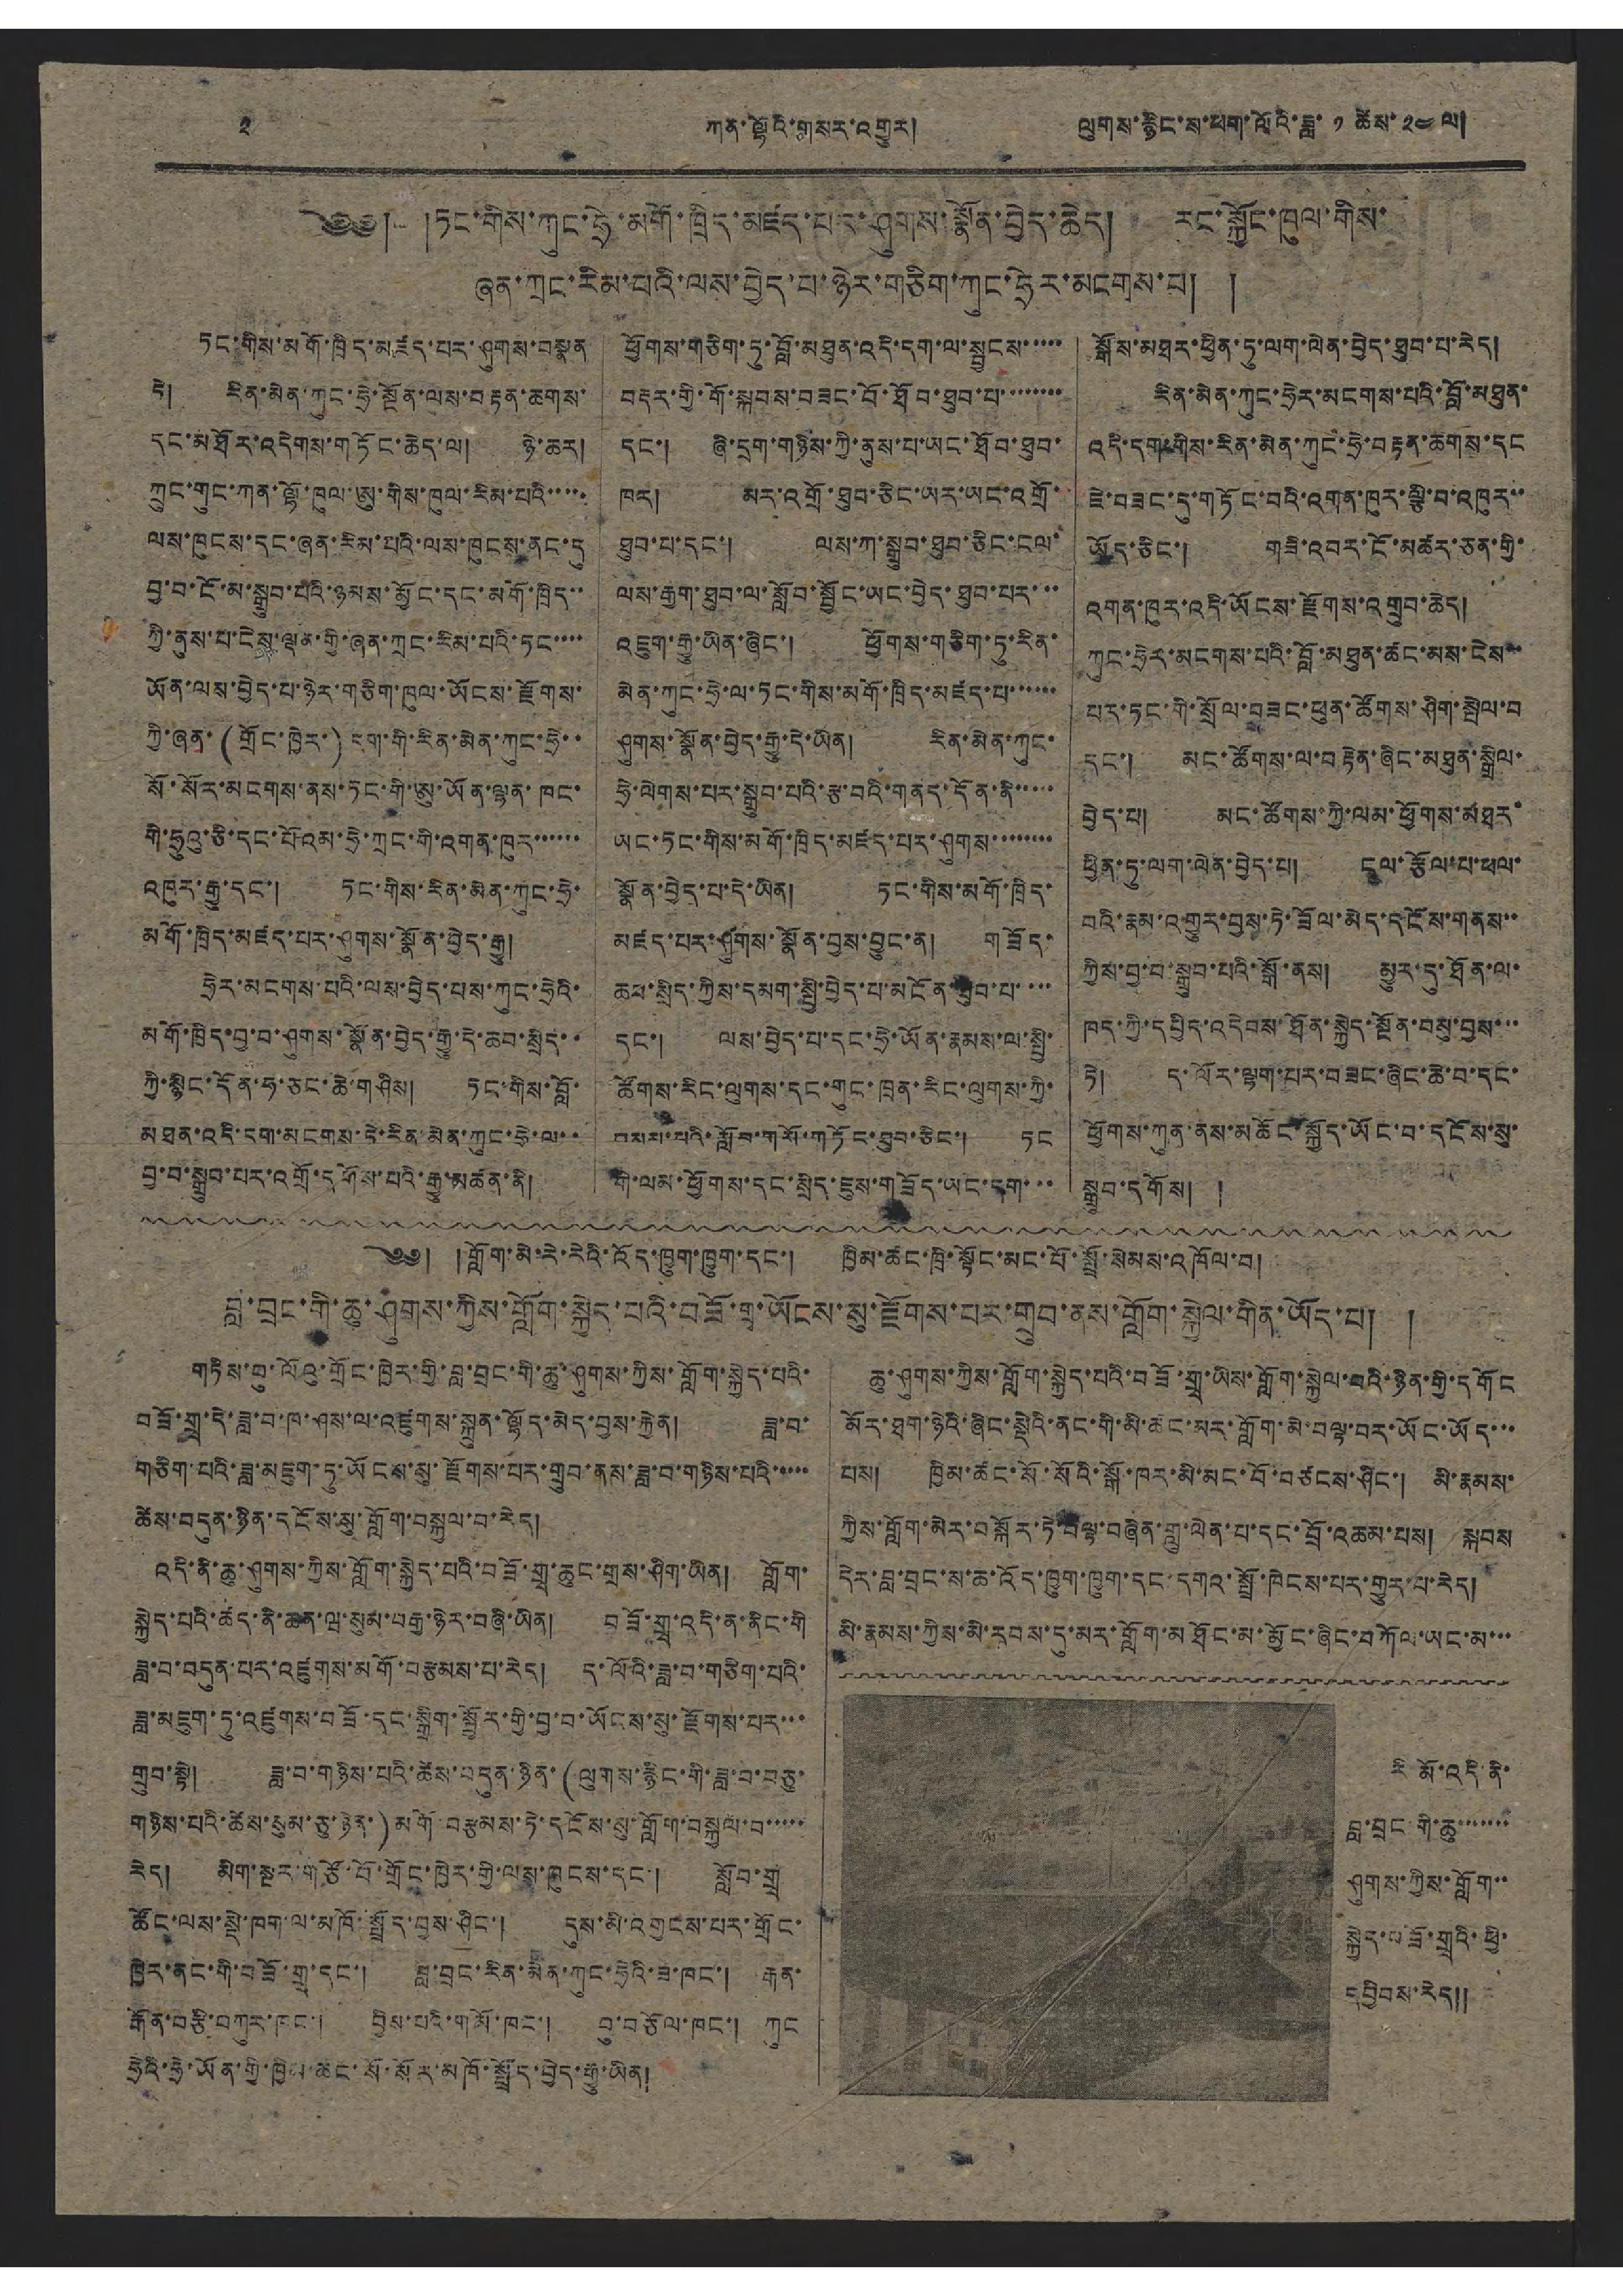༢ ཀན་ལྷོའི་གསར་འགྱུར། ལུགས་རྙིང་ས་ཕག་ལོའི་ཟླ་ ༡ ཚེས་ ༢༤ ལ།
༄༅། །ཏང་གིས་ཀུང་ཧྲེ་མགོ་ཁྲིད་མཛད་པར་ཤུགས་སྣོན་བྱེད་ཆེད། རང་སྐྱོང་ཁུལ་གིས་
ཞན་ཀྲང་རིམ་པའི་ལས་བྱེད་པ་ཉེར་གཅིག་ཀུང་ཧྲེར་མངགས་པ། །
ཏང་གིས་མགོ་ཁྲིད་མཛད་པར་ཤུགས་བསྣན
ཏེ། རིན་མེན་ཀུང་ཧྲེ་སྔོན་ལས་བརྟན་ཆགས་
དང་མཐོར་འདེགས་གཏོང་ཆེད་ལ། ཉེ་ཆར།
ཀྲུང་གུང་ཀན་ལྷོ་ཁུལ་ཨུ་གིས་ཁུལ་རིམ་པའི་་་་་
ལས་ཁུངས་དང་ཞན་རིམ་པའི་ལས་ཁུངས་ནང་དུ
བྱ་བ་ངོ་མ་སྒྲུབ་པའི་ཉམས་མྱོང་དང་མགོ་ཁྲིད་་
ཀྱི་ནུས་པ་ངེས་ལྡན་གྱི་ཞན་ཀྲང་རིམ་པའི་ཏང་་་་
ཡོན་ལས་བྱེད་པ་ཉེར་གཅིག་ཁུལ་ཡོངས་རྫོགས་
ཀྱི་ཞན་ (གྲོང་ཁྱེར་) དག་གི་རིན་མེན་ཀུང་ཧྲེ་་
སོ་སོར་མངགས་ནས་ཏང་གི་ཨུ་ཡོན་ལྷན་ཁང་
གི་ཧྲུའུ་ཅི་དང་པོའམ་ཧྲེ་ཀྲང་གི་འགན་ཁུར་་་་་་
འཁུར་རྒྱུ་དང་། ཏང་གིས་རིན་མེན་ཀུང་ཧྲེ་
མགོ་ཁྲིད་མཛད་པར་ཤུགས་སྣོན་བྱེད་རྒྱུ།
ཧྲེར་མངགས་པའི་ལས་བྱེད་པས་ཀུང་ཧྲེའི་
མགོ་ཁྲིད་བྱས་བ་ཤུགས་སྣོན་བྱེད་རྒྱུ་དེ་ཆབ་སྲིད་་
ཀྱི་སྙིང་དོན་ཧ་ཅང་ཆེ་གཤིས། ཏང་གིས་བློ་
མཐན་འདི་དག་མངགས་ཏེ་རིན་མེན་ཀུང་ཧྲེ་ལ་་
བྱ་བ་སྒྲུབ་པར་འགྲོ་དགོས་པའི་རྒྱུ་མཚན་ནི།
ཕྱོགས་གཅིག་ཏུ་བློ་མཐུན་འདི་དག་ལ་སྦྱངས་་་་་
བརྡར་གྱི་གོ་སྐབས་བཟང་བོ་ཐོབ་ཐུབ་པ་་་་་་་་
དང་། ཞི་དྲག་གཉིས་ཀྱི་ནུས་པ་ཡང་ཐོབ་ཐུབ་
ཁར། མར་འགྲོ་ཐུབ་ཅིང་ཡར་ཡང་འགྲོ་
ཐུབ་པ་དང་། ལས་ཀ་སྒྲུབ་ཐུབ་ཅིང་ངལ་
ལས་རྒྱག་ཐུབ་ལ་སློབ་སྦྱོང་ཡང་བྱེད་ཐུབ་པར་་་
འཇུག་རྒྱུ་ཡིན་ཞིང་། ཕྱོགས་གཅིག་ཏུ་རིན་
མེན་ཀུང་ཧྲེ་ལ་ཏང་གིས་མགོ་ཁྲིད་མཛད་པ་་་་་་
ཤུགས་སྣོན་བྱེད་རྒྱུ་དེ་ཡིན། རིན་མེན་ཀུང་
ཧྲེ་ལེགས་པར་སྒྲུབ་པའི་རྩ་བའི་གནད་དོན་ནི་་་་་
ཡང་ཏང་གིས་མགོ་ཁྲིད་མཛད་པར་ཤུགས་་་་་་་་
སྣོན་བྱེད་པ་དེ་ཡིན། ཏང་གིས་མགོ་ཁྲིད་
མཛད་པར་ཤུགས་སྣོན་བྱས་བྱུང་ན། གཟོད་
ཆབ་སྲིད་ཀྱིས་དམག་སྤྱི་བྱེད་པ་མངོན་ཐུབ་པ་་་་
དང་། ལས་བྱེད་པ་དང་ཧྲེ་ཡོན་རྣམས་ལ་སྤྱི་
ཚོགས་རིང་ལུགས་དང་གུང་ཁྲན་རིང་ལུགས་ཀྱི་
བསམ་པའི་སློབ་གསོ་གཏོང་ཐུབ་ཅིང་། ཏང
གི་ལམ་ཕྱོགས་དང་སྲིད་ཇུས་གཟོད་ཡང་དག་་་
སྒོས་མཐར་ཕྱིན་ཏུ་ལག་ལེན་བྱེད་ཐུབ་པ་རེད།
རིན་མེན་ཀུང་ཧྲེར་མངགས་པའི་བློ་མཐུན་
འདི་དག་གིས་རིན་མེན་ཀུང་ཧྲེ་བརྟན་ཆགས་དང
ཇེ་བཟང་དུ་གཏོང་བའི་འགན་ཁུར་ལྕི་བ་འཁུར་་
ཡོད་ཅིང་། གཟི་འབར་ངོ་མཚར་ཅན་གྱི་
འགན་ཁུར་འདི་ཡོངས་རྫོགས་འགྲུབ་ཆེད།
ཀུང་ཧྲེར་མངགས་པའི་བློ་མཐུན་ཚང་མས་ངེས་་
པར་ཏང་གི་སྲོལ་བཟང་ཕུན་ཚོགས་ཤིག་སྤེལ་བ
དང་། མང་ཚོགས་ལ་བརྟེན་ཞིང་མཐུན་སྒྲིལ་
བྱེད་པ། མང་ཚོགས་ཀྱི་ལམ་ཕྱོགས་མཐར་
ཕྱིན་ཏུ་ལག་ལེན་བྱེད་པ། ངལ་རྩོལ་པ་ཕལ་
བའི་རྣམ་འགྱུར་བྱས་ཏེ་ཟོལ་མེད་དངོས་གནས་་
ཀྱིས་བྱ་བ་སྒྲུབ་པའི་སྒོ་ནས། མྱུར་དུ་ཐོན་ལ་
ཁད་ཀྱི་དཕྱིད་འདེབས་ཐོན་སྐྱེད་སྔོན་བསུ་བྱས་་་
ཏེ། ད་ལོར་ལྷག་པར་བཟང་ཞིང་ཆེ་བ་དང་
ཕྱོགས་ཀུན་ནས་མཆོང་སྐྱོད་ཡོང་བ་དངོས་སུ་
སྒྲུབ་དགོས། །
༄༅། །གློག་མེ་རེ་རེའི་འོད་ཁྱུག་ཁྱུག་དང་། ཁྱིམ་ཚང་ཁྲི་སྟོང་མང་པོ་སྤྲོ་སེམས་འཁོལ་བ།
བླ་བྲང་གི་ཆུ་ཤུགས་ཀྱིས་གློག་སྐྱེད་པའི་བཟོ་གྲྭ་ཡོངས་སུ་རྫོགས་པར་གྲུབ་ནས་གློག་སྐྱེལ་གིན་ཡོད་པ། །
གཏིས་བུ་ལོའུ་གྲོང་ཁྱེར་གྱི་བླ་གྲང་གི་ཆུ་ཤུགས་ཀྱིས་གློག་སྐྱེད་པའི་
བཟོ་གྲྭ་དེ་ཟླ་བ་ཁ་ཤས་ལ་འཛུགས་སྐྲུན་ལྷོད་མེད་བྱས་རྐྱེན། ཟླ་བ་
གཅིག་པའི་ཟླ་མཇུག་ཏུ་ཡོངས་སུ་རྫོགས་པར་གྲུབ་ནས་ཟླ་བ་གཉིས་པའི་་་་་
ཚེས་བདུན་ཉིན་དངོས་སུ་གློག་བསྐྱལ་བ་རེད།
འདི་ནི་ཆུ་ཤུགས་ཀྱིས་གློག་སྐྱེད་པའི་བཟོ་གྲྭ་ཆུང་གྲས་ཤིག་ཡིན། གློག་
སྐྱེད་པའི་ཚད་ནི་ཆན་ཝ་སུམ་བརྒྱ་ཉེར་བཞི་ཡིན། བཟོ་གྲྭ་འདི་ན་ནིང་གི
ཟླ་བ་བདུན་པར་འཛུགས་མགོ་བརྩམས་པ་རེད། ད་ལོའི་ཟླ་བ་གཅིག་པའི་
ཟླ་མཇུག་ཏུ་འཛུགས་བཟོ་དང་སྒྲིག་སྦྱོར་གྱི་བྱ་བ་ཡོངས་སུ་རྫོགས་པར་་་
གྲུབ་སྟེ། ཟླ་བ་གཉིས་པའི་ཚེས་བདུན་ཉིན་ (ལུགས་རྙིང་གི་ཟླ་བ་བཅུ་
གཉིས་པའི་ཚེས་སུམ་ཅུ་ཉིན་) མགོ་བརྩམས་ཏེ་དངོས་སུ་གློག་བསྐྱལ་བ་་་་་
རེད། མིག་སྔར་གཙོ་བོ་གྲོང་ཁྱེར་གྱི་ལས་ཁུངས་དང་། སློབ་གྲྭ
ཚོང་ལས་སྡེ་ཁག་ལ་མཁོ་སྤྲོད་བྱས་ཤིང་། དུས་མི་འགྱངས་པར་གྲོང་
ཁྱེར་ནང་གི་བཟོ་གྲྭ་དང་། བླ་བྲང་རིན་མེན་ཀུང་ཧྲེའི་ཟ་ཁང་། རྒན་
རྒོན་བརྩི་བཀུར་ཁང་། བྱིས་པའི་གསོ་ཁང་། བུ་བཅོལ་ཁང་། ཀུང
ཧྲེའི་ཧྲེ་ཡོན་གྱི་ཁྱིམ་ཚང་སོ་སོར་མཁོ་སྤྲོད་བྱེད་རྒྱུ་ཡིན།
ཆུ་ཤུགས་ཀྱིས་གློག་སྐྱེད་པའི་བཟོ་གྲྭ་ཡིས་གློག་སྐྱེལ་བའི་ཉིན་གྱི་དགོང
མོར་ཐག་ཉེའི་ཞིང་སྡེའི་ནང་གི་མི་ཚང་མར་གློག་མེ་བལྟ་བར་ཡོང་ཡོད་་་
པས། ཁྱིམ་ཚང་སོ་སོའི་སྒོ་ཁར་མི་མང་བོ་བཙངས་ཤིང་། མི་རྣམས་
ཀྱིས་གློག་མེར་བསྐོར་ཏེ་བལྟ་བཞིན་གླུ་ལེན་པ་དང་བྲོ་འཆམ་པས། སྐབས
དེར་བླ་བྲང་ས་ཆ་འོད་ཁྱུག་ཁྱུག་དང་དགའ་སྤྲོ་ཁེངས་པར་གྱུར་པ་རེད།
མི་རྣམས་ཀྱིས་མེ་རབས་དུ་མར་གློག་མཐོང་མ་མྱོང་ཞིང་བཀོལ་ཡང་མ་་་
རི མོ་འདི་ནི་
བླ་བྲང་གི་ཆུ་་་་་་་
ཤུགས་ཀྱིས་གློག་་
སྐྱེད་བཟོ་གྲྭའི་ཕྱི་
དབྱིབས་རེད༎
